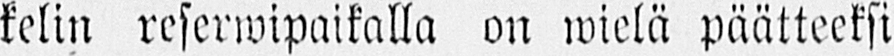kelin reserwipaikalla on wielä päätteeksi
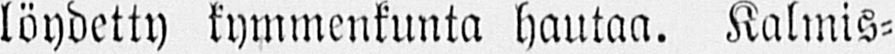löydetty kymmenkunta hautaa. Kalmis-
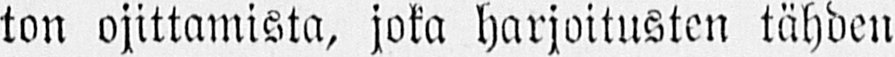ton ojittamista, joka harjoitusten tähden
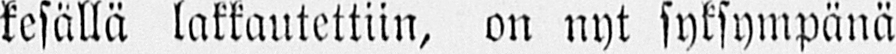kesällä lakkautettiin, on nyt syksympänä
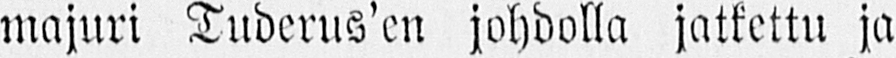majuri Tuderus'en johdolla jatkettu ja
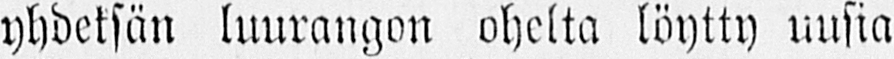yhdeksän luurangon ohelta löytty uusia
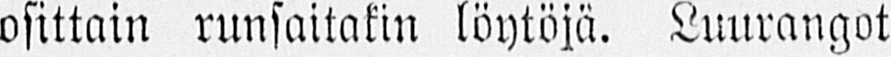osittain runsaitakin löytöjä. Luurangot
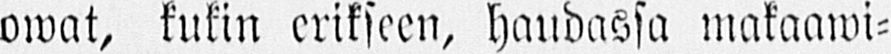owat, kukin erikseen, haudassa makaawi-
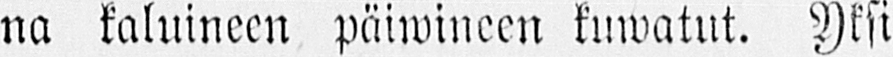na kaluineen päiwineen kuwatut. Yksi
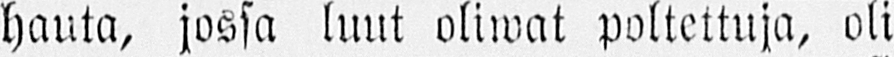hauta, jossa luut oliwat poltettuja, oli
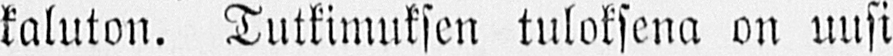kaluton. Tutkimuksen tuloksena on uusi
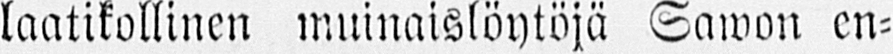laatikollinen muinaislöytöjä Sawon en-
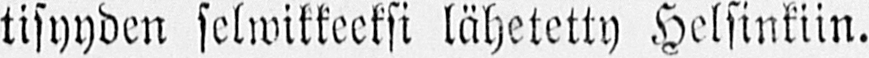tisyyden selwikkeeksi lähetetty Helsinkiin.
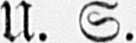U. S.
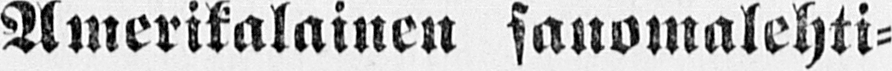Amerikalainen sanomalehti-
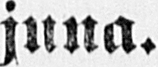juna.
